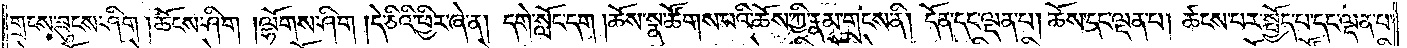གྲངས་ཟུངས་ཤིག །ཆོངས་ཤིག །ལྷོགས་ཤིག །དེ་ཅིའི་ཕྱིར་ཞེ་ན། དགེ་སློང་དག །ཆོས་སྣ་ཚོགས་པའི་ཆོས་ཀྱི་རྣམ་གྲངས་ནི། དོན་དང་ལྡན་པ། ཆོས་དང་ལྡན་པ། ཚངས་པར་སྤྱོད་པ་དང་ལྡན་པ་
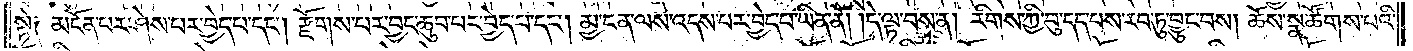སྟེ༑ མངོན་པར་ཤེས་པར་བྱེད་པ་དང༌། རྫོགས་པར་བྱང་ཆུབ་པར་བྱེད་པ་དང༌། མྱ་ངན་ལས་འདས་པར་བྱེད་པ་ཡིན་ནོ། །དེ་ལྟ་བས་ན། རིགས་ཀྱི་བུ་དད་པས་རབ་ཏུ་བྱུང་བས། ཆོས་སྣ་ཚོགས་པའི་
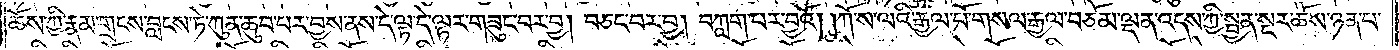ཆོས་ཀྱི་རྣམ་གྲངས་བླངས་ཏེ་ཀུན་ཆུབ་པར་བྱས་ནས་དེ་ལྟ་དེ་ལྟར་གཟུང་བར་བྱ། བཅང་བར་བྱ། བཀླག་པར་བྱའོ། །ཀོ་ས་ལའི་རྒྱལ་པོ་གསལ་རྒྱལ་བཅོམ་ལྡན་འདས་ཀྱི་སྤྱན་སྔར་ཆོས་ཉན་པ་
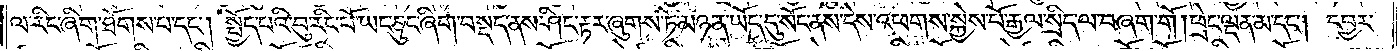ལ་རིང་ཞིག་ཐོགས་པ་དང༌། སྤྱོད་པའི་བུ་རིང་པོ་ཡང་ཅུང་ཞིག་བསྡད་ནས་ཤིང་རྟར་ཞུགས་ཏེ་མཉན་ཡོད་དུ་སོང་ནས་དེས་འཕགས་སྐྱེས་པོ་རྒྱལ་སྲིད་ལ་བཞག་གོ །ཕྲེང་ལྡན་མ་དང༌། དབྱར་
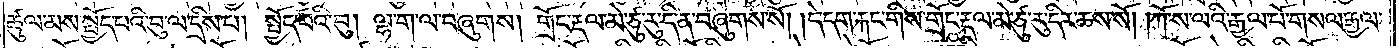ཚུལ་མས་སྤྱོད་པའི་བུ་ལ་དྲིས་པ། སྤྱོད་པའི་བུ། ལྷ་ག་ལ་བཞུགས། གྲོང་རྡལ་མེ་ཙུ་རུ་དི་ན་བཞུགས་སོ། །དེ་དག་རྐང་གིས་གྲོང་རྡལ་མེ་ཙུ་རུ་དིར་ཆས་སོ། །ཀོ་ས་ལའི་རྒྱལ་པོ་གསལ་རྒྱལ་
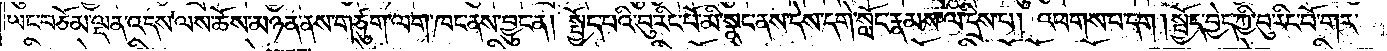ཡང་བཅོམ་ལྡན་འདས་ལས་ཆོས་མཉན་ནས་གཙུག་ལག་ཁང་ནས་བྱུང་ན། སྤྱོད་པའི་བུ་རིང་པོ་མི་སྣང་ནས་དེས་དགེ་སློང་རྣམས་ལ་དྲིས་པ། འཕགས་པ་དག །སྤྱོད་བྱེད་ཀྱི་བུ་རིང་པོ་གར་
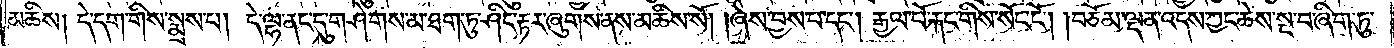མཆིས། དེ་དག་གིས་སྨྲས་པ། དེ་ལྷ་ནང་དུ་གཤེགས་མ་ཐག་ཏུ་ཤིང་རྟར་ཞུགས་ནས་མཆིས་སོ། །ཞེས་བྱས་པ་དང༌། རྒྱལ་པོ་རྐང་གིས་སོང་ངོ༌། །བཅོམ་ལྡན་འདས་ཀྱང་ཆེས་སྔ་བ་ཞིག་ཏུ་
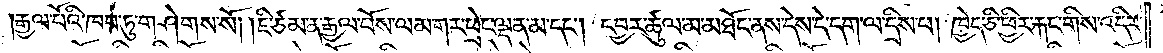རྒྱལ་པོའི་ཁབ་ཏུ་གཤེགས་སོ། །ཇི་ཙམ་ན་རྒྱལ་པོས་ལམ་གར་ཕྲེང་ལྡན་མ་དང༌། དབྱར་ཚུལ་མ་མཐོང་ནས་དེས་དེ་དག་ལ་དྲིས་པ། ཁྱེད་ཅི་ཕྱིར་རྐང་གིས་འདིར་
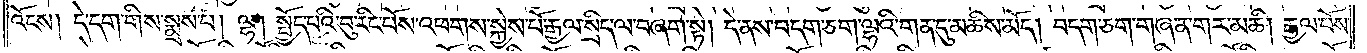འོངས། དེ་དག་གིས་སྨྲས་པ། ལྷ། སྤྱོད་པའི་བུ་རིང་པོས་འཕགས་སྐྱེས་པོ་རྒྱལ་སྲིད་ལ་བཞག་སྟེ། དེ་ནས་བདག་ཅག་ལྷའི་གན་དུ་མཆིས་མོད། བདག་ཅག་གཞན་གར་མཆི། རྒྱལ་པོས་
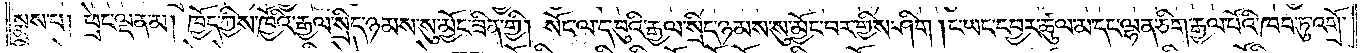སྨྲས་པ། ཕྲེང་ལྡན་མ། ཁྱོད་ཀྱིས་ཁྱོའི་རྒྱལ་སྲིད་ཉམས་སུ་མྱོང་ཟིན་གྱི། སོང་ལ་ད་བུའི་རྒྱལ་སྲིད་ཉམས་སུ་མྱོང་བར་གྱིས་ཤིག །ང་ཡང་དབྱར་ཚུལ་མ་དང་ལྷན་ཅིག་རྒྱལ་པོའི་ཁབ་ཏུ་འགྲོ་
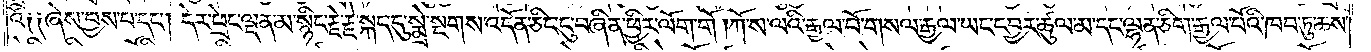འོ༑ ༑ཞེས་བྱས་པ་དང༌། དེར་ཕྲེང་ལྡན་མ་སྙིང་རྗེ་རྗེ་སྐད་དུ་སྨྲེ་སྔགས་འདོན་ཅིང་ངུ་བཞིན་ཕྱིར་ལོག་གོ །ཀོ་ས་ལའི་རྒྱལ་པོ་གསལ་རྒྱལ་ཡང་དབྱར་ཚུལ་མ་དང་ལྷན་ཅིག་རྒྱལ་པོའི་ཁབ་ཏུ་ཆས་
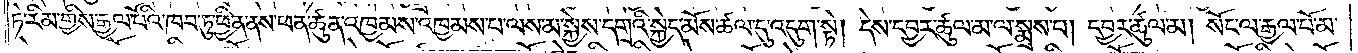ཏེ་རིམ་གྱིས་རྒྱལ་པོའི་ཁབ་ཏུ་ཕྱིན་ནས་ཕན་ཚུན་འཁྱམས་འཁྱམས་པ་ལས་མ་སྐྱེས་དགྲའི་སྐྱེད་མོས་ཚལ་དུ་འདུག་སྟེ། དེས་དབྱར་ཚུལ་མ་ལ་སྨྲས་པ། དབྱར་ཚུལ་མ། སོང་ལ་རྒྱལ་པོ་མ་
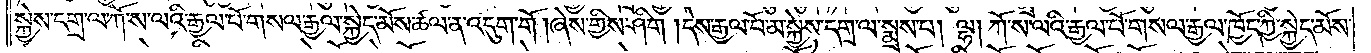སྐྱེས་དགྲ་ལ་ཀོ་ས་ལའི་རྒྱལ་པོ་གསལ་རྒྱལ་སྐྱེད་མོས་ཚལ་ན་འདུག་གོ །ཞེས་གྱིས་ཤིག །དེས་རྒྱལ་པོ་མ་སྐྱེས་དགྲ་ལ་སྨྲས་པ། ལྷ། ཀོ་ས་ལའི་རྒྱལ་པོ་གསལ་རྒྱལ་ཁྱོད་ཀྱི་སྐྱེད་མོས་
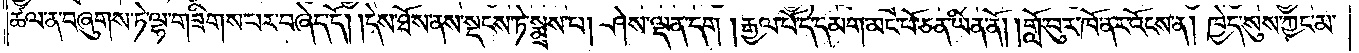ཚལ་ན་བཞུགས་ཏེ་ལྷ་གཟིགས་པར་བཞེད་དོ། །དེས་ཐོས་ནས་སྡངས་ཏེ་སྨྲས་པ། ཤེས་ལྡན་དག །རྒྱལ་པོ་དེ་དམག་མང་པོ་ཅན་ཡིན་ནོ། །གློ་བུར་ཁོ་ནར་འོངས་ན། ཁྱེད་སུས་ཀྱང་མ་
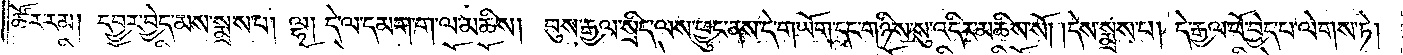ཚོར་རམ། དབྱར་བྱེད་མས་སྨྲས་པ། ལྷ། དེ་ལ་དམག་ག་ལ་མཆིས། བུས་རྒྱལ་སྲིད་ལས་ཕྱུང་ནས་དེ་གཡོག་དང་གཉིས་སུ་འདིར་མཆིས་སོ། །དེས་སྨྲས་པ། དེ་རྒྱལ་པོ་བྱེད་པ་ལེགས་ཏེ།
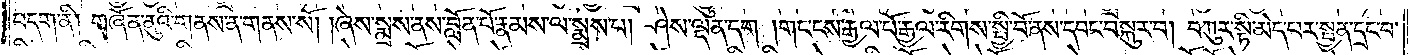བདག་ནི། གཞོན་ནུའི་གནས་ན་གནས་སོ། །ཞེས་སྨྲས་ནས་བློན་པོ་རྣམས་ལ་སྨྲས་པ། ཤེས་ལྡན་དག །གང་ངས་རྒྱལ་པོ་རྒྱལ་རིགས་སྤྱི་བོ་ནས་དབང་བསྐུར་བ། བཀུར་སྟི་མེད་པར་སྤྱན་དྲང་བ་
